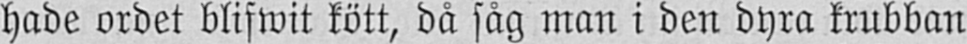hade ordet blifwit kött, då såg man i den dyra krubban
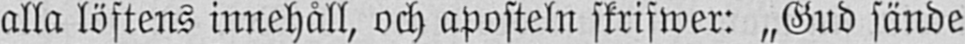alla löftens innehåll, och aposteln skrifwer: „Gud sände
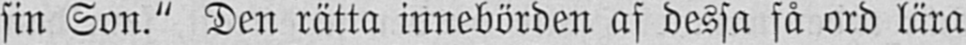sin Son." Den rätta innebörden af dessa få ord lära
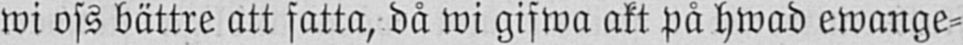wi oss bättre att fatta, då wi gifwa akt på hwad ewange-
